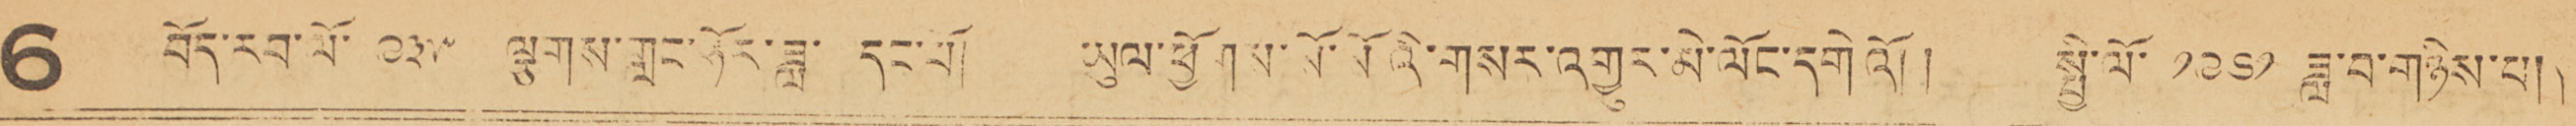6 བོད་རབ་ལོ་ ༩༣༥ ལྕགས་གླང་ཧོར་ཟླ་ དང་པོ། ཡུལ་ཕྱོགས་སོ་སོའི་གསར་འགྱུར་མེ་ལོང་དགེའོ།། སྤྱི་ལོ་ ༡༩༦༡ ཟླ་བ་གཉིས་པ།།
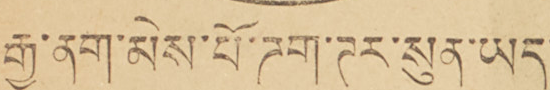རྒྱ་ནག་མེས་པོ་ཌག་ཊར་སུན་ཡད་
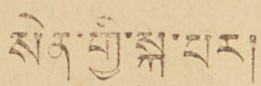སེན་གྱི་སྐུ་པར།
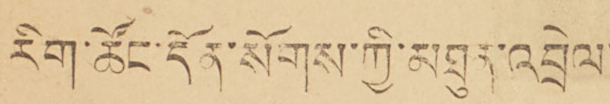རིག་ཚོང་དོན་སོགས་ཀྱི་མཐུན་འབྲེལ་
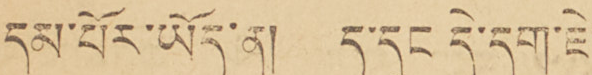དམ་པོར་ཡོད་ན། ད་དུང དེ་དག་ཇེ་
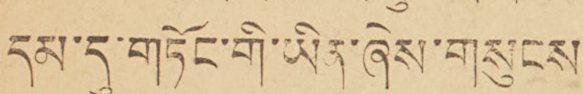དམ་དུ་གཏོང་གི་ཡིན་ཞེས་གསུངས་
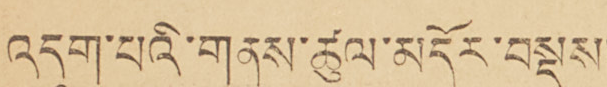འདུག་པའི་གནས་ཚུལ་མདོར་བསྡུས།
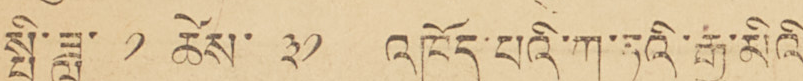སྤྱི་ཟླ་ ༡ ཚེས་ ༣༡ འཁོད་པའི་ཀ་ཏའི་རྒྱ་མིའི་
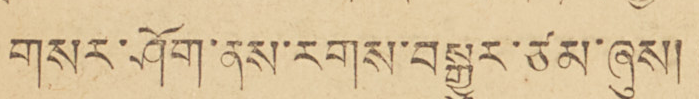གསར་ཤོག་ནས་རགས་བསྒྱུར་ཙམ་ཞུས།།
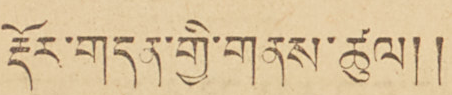རྡོར་གདན་གྱི་གནས་ཚུལ།།
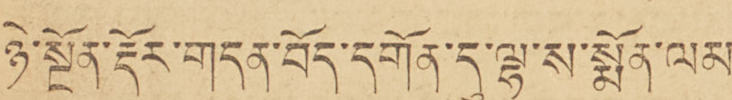ཉེ་སྔོན་རྡོར་གདན་བོད་དགོན་དུ་ལྷ་ས་སྨོན་ལམ་
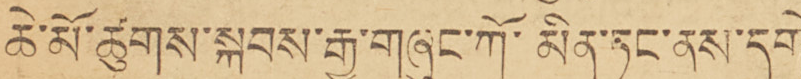ཆེ་མོ་ཚུགས་སྐབས་རྒྱ་གཞུང་ཀོ་མིན་ཏང་ནས་དགེ་
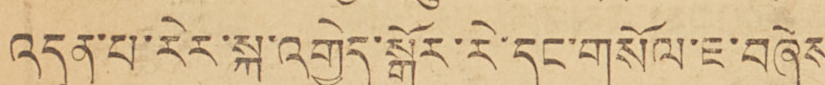འདུན་པ་རེར་སྐུ་འགྱེད་སྒོར་རེ་དང་གསོལ་ཇ་བཞེས་
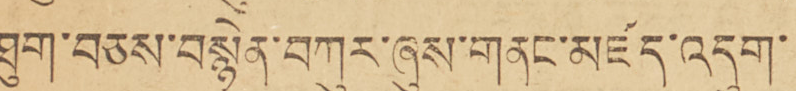ཐུག་བཅས་བསྙེན་བཀུར་ཞུས་གནང་མཛད་འདུག་
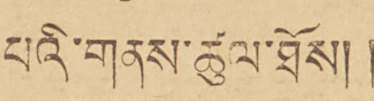པའི་གནས་ཚུལ་ཐོས།།
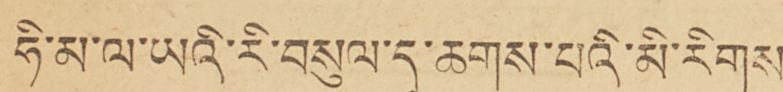ཧི་མ་ལ་ཡའི་རི་བསུལ་དུ་ཆགས་པའི་མི་རིགས་
